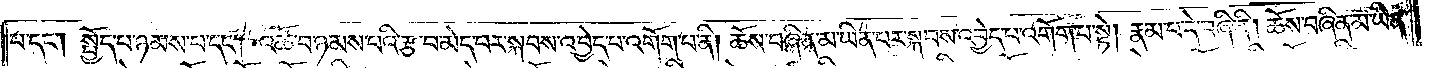པ་དང༌། སྤྱོད་པ་ཉམས་པ་དང༌། འཚོ་བ་ཉམས་པའི་རྩ་བ་མེད་པར་སྐབས་འབྱེད་པ་འགོག་པ་ནི། ཆོས་བཞིན་མ་ཡིན་པར་སྐབས་འབྱེད་པ་འགོག་པ་སྟེ། རྣམ་པ་དེ་བཞི་ནི། ཆོས་བཞིན་མ་ཡིན་
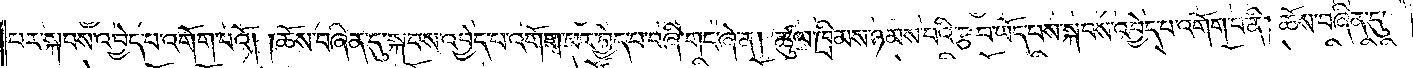པར་སྐབས་འབྱེད་པ་འགོག་པའོ། །ཆོས་བཞིན་དུ་སྐབས་འབྱེད་པ་འགོག་པར་བྱེད་པ་བཞི་གང་ཞེ་ན། ཚུལ་ཁྲིམས་ཉམས་པའི་རྩ་བ་ཡོད་པས་སྐབས་འབྱེད་པ་འགོག་པ་ནི། ཆོས་བཞིན་དུ་
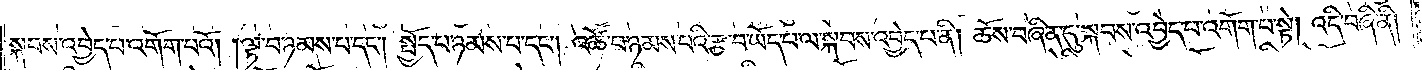སྐབས་འབྱེད་པ་འགོག་པའོ། །ལྟ་བ་ཉམས་པ་དང༌། སྤྱོད་པ་ཉམས་པ་དང༌། འཚོ་བ་ཉམས་པའི་རྩ་བ་ཡོད་པ་ལ་སྐབས་འབྱེད་པ་ནི། ཆོས་བཞིན་དུ་སྐབས་འབྱེད་པ་འགོག་པ་སྟེ། འདི་བཞི་ནི།
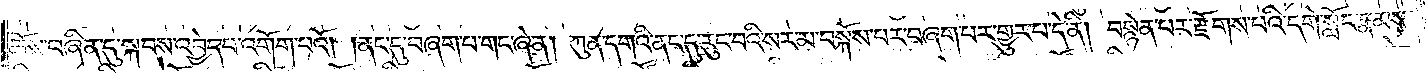ཆོས་བཞིན་དུ་སྐབས་འབྱེད་པ་འགོག་པའོ། །ནང་དུ་བཞག་པ་གང་ཞེ་ན། ཀུན་དགའི་ནང་དུ་རུང་བའི་སར་མ་བསྐོས་པར་བཞག་པར་གྱུར་པ་དེ་ནི། བསྙེན་པར་རྫོགས་པའི་དགེ་སློང་རྣམས་
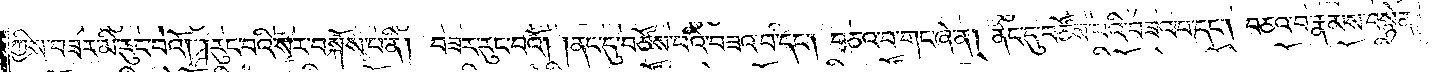ཀྱིས་བཟར་མི་རུང་བའོ། །རུང་བའི་སར་བསྐོས་པ་ནི། བཟར་རུང་བའོ། །ནང་དུ་བཙོས་པའི་བཟའ་བ་དང༌། བཅའ་བ་གང་ཞེ་ན། ནང་དུ་བཙོས་པའི་བཟའ་བ་དང༌། བཅའ་བ་རྣམས་བསྙེན་
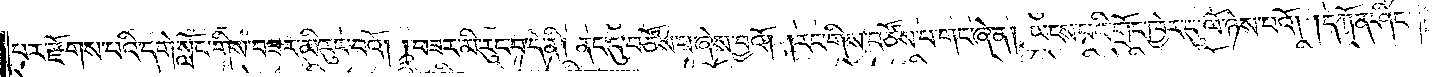པར་རྫོགས་པའི་དགེ་སློང་གིས་བཟར་མི་རུང་བའོ། །བཟར་མི་རུང་བ་དེ་ནི། ནང་དུ་བཙོས་པ་ཞེས་བྱའོ། །རང་གིས་བཙོས་པ་གང་ཞེ་ན། ཡངས་པའི་གྲོང་ཁྱེར་དུ་ལོ་ཉེས་པའོ། །དཀོན་ཤིང་
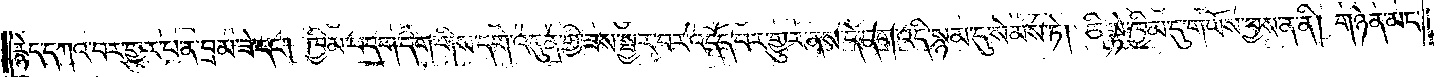རྙེད་དཀའ་བར་གྱུར་པ་ན་བྲམ་ཟེ་དང༌། ཁྱིམ་བདག་དག་གིས་དགེ་འདུན་གྱི་ཟས་སྦྱར་བར་འདོད་པར་གྱུར་ནས་དེ་དག་འདི་སྙམ་དུ་སེམས་ཏེ། ཅི་སྟེ་ཁྱིམ་དུ་གཡོས་བྱས་ན་ནི། གཉེན་མང་
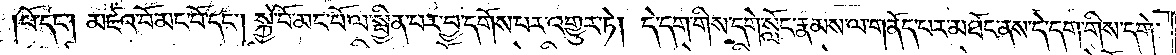པོ་དང༌། མཛའ་བོ་མང་པོ་དང༌། སྐྱོ་བོ་མང་པོ་ལ་སྦྱིན་པར་བྱ་དགོས་པར་འགྱུར་ཏེ། དེ་དག་གིས་དགེ་སློང་རྣམས་ལ་གནོད་པར་མཐོང་ནས་དེ་དག་གིས་དགེ་
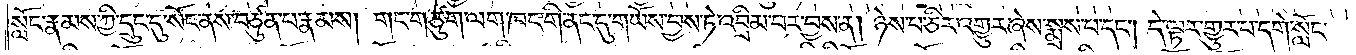སློང་རྣམས་ཀྱི་དྲུང་དུ་སོང་ནས་བཙུན་པ་རྣམས། གང་གཙུག་ལག་ཁང་གི་ནང་དུ་གཡོས་བྱས་ཏེ་འབྲིམ་པར་བྱས་ན། ཉེས་པ་ཅིར་འགྱུར་ཞེས་སྨྲས་པ་དང༌། དེ་ལྟར་གྱུར་པ་དགེ་སློང་
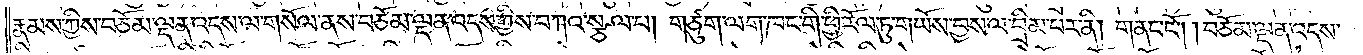རྣམས་ཀྱིས་བཅོམ་ལྡན་འདས་ལ་གསོལ་ནས་བཅོམ་ལྡན་འདས་ཀྱིས་བཀའ་སྩལ་པ། གཙུག་ལག་ཁང་གི་ཕྱི་རོལ་ཏུ་གཡོས་བྱས་ལ་བྲིམ་པར་ནི། གནང་ངོ༌། །བཅོམ་ལྡན་འདས་
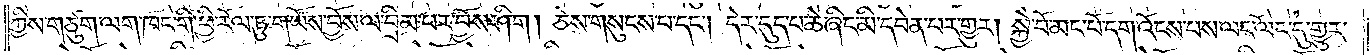ཀྱིས་གཙུག་ལག་ཁང་གི་ཕྱི་རོལ་ཏུ་གཡོས་བྱོས་ལ་བྲིམ་པར་བྱོས་ཤིག །ཅེས་གསུངས་པ་དང༌། དེར་དུད་པ་ཆེ་ཞིང་མི་དབེན་པར་གྱུར། སྐྱེ་བོ་མང་པོ་དག་འོངས་པས་ལང་ལོང་དུ་གྱུར་
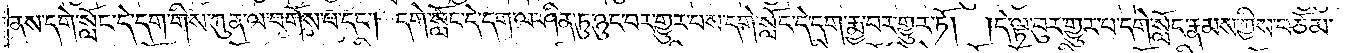ནས་དགེ་སློང་དེ་དག་གིས་ཀུན་ལ་བགོས་པ་དང༌། དགེ་སློང་དེ་དག་ལ་ཤིན་ཏུ་ཉུང་བར་གྱུར་པས་དགེ་སློང་དེ་དག་རྨྱ་བར་གྱུར་ཏོ། །དེ་ལྟ་བུར་གྱུར་པ་དགེ་སློང་རྣམས་ཀྱིས་བཅོམ་
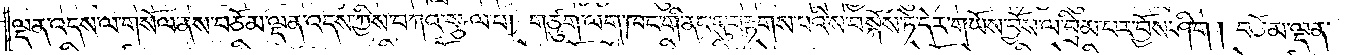ལྡན་འདས་ལ་གསོལ་ནས་བཅོམ་ལྡན་འདས་ཀྱིས་བཀའ་སྩལ་པ། གཙུག་ལག་ཁང་གི་ནང་དུ་བརྟགས་པའི་ས་བསྐོས་ཏེ་དེར་གཡོས་བྱོས་ལ་བྲིམ་པར་བྱོས་ཤིག །བཅོམ་ལྡན་
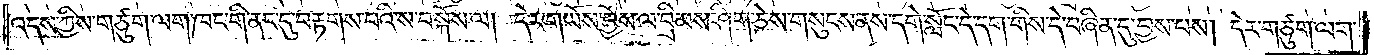འདས་ཀྱིས་གཙུག་ལག་ཁང་གི་ནང་དུ་བརྟགས་པའི་ས་བསྐོས་ལ། དེར་གཡོས་བྱོས་ལ་བྲིམས་ཤིག་ཅེས་གསུངས་ནས་དགེ་སློང་དེ་དག་གིས་དེ་བཞིན་དུ་བྱས་པས། དེར་གཙུག་ལག་
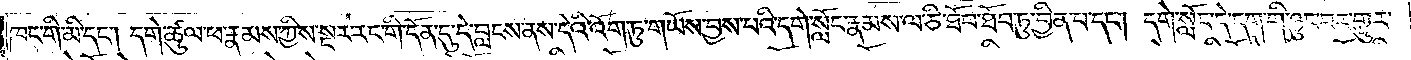ཁང་གི་མི་དང༌། དགེ་ཚུལ་ཕ་རྣམས་ཀྱིས་སྔར་རང་གི་དོན་དུ་དེ་བླངས་ནས་དེའི་འོག་ཏུ་གཡོས་བྱས་པའི་དགེ་སློང་རྣམས་ལ་ཅི་ཐོབ་ཐོབ་ཏུ་བྱིན་པ་དང༌། དགེ་སློང་དེ་དག་གི་ཉུང་བར་གྱུར་
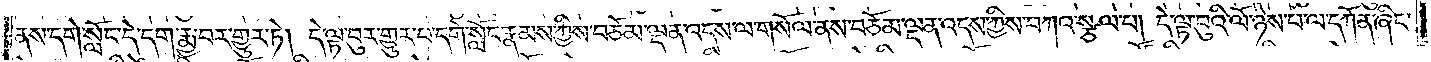ནས་དགེ་སློང་དེ་དག་རྨྱ་བར་གྱུར་ཏེ། དེ་ལྟ་བུར་གྱུར་པ་དགེ་སློང་རྣམས་ཀྱིས་བཅོམ་ལྡན་འདས་ལ་གསོལ་ནས་བཅོམ་ལྡན་འདས་ཀྱིས་བཀའ་སྩལ་པ། དེ་ལྟ་བུའི་ལོ་ཉེས་པ་ལ་དཀོན་ཞིང་
